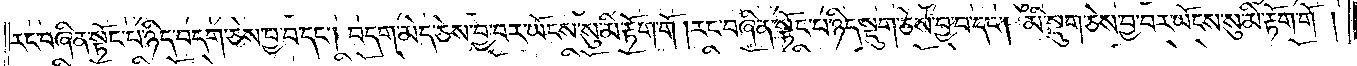རང་བཞིན་སྟོང་པ་ཉིད་བདག་ཅེས་བྱ་བ་དང༌། བདག་མེད་ཅེས་བྱ་བར་ཡོངས་སུ་མི་རྟོག་གོ །རང་བཞིན་སྟོང་པ་ཉིད་སྡུག་ཅེས་བྱ་བ་དང༌། མི་སྡུག་ཅེས་བྱ་བར་ཡོངས་སུ་མི་རྟོག་གོ །
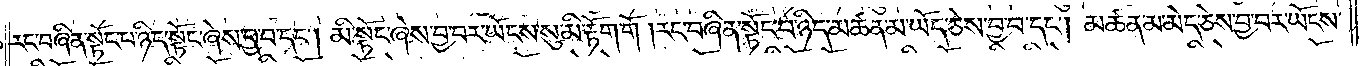རང་བཞིན་སྟོང་པ་ཉིད་སྟོང་ཞེས་བྱ་བ་དང༌། མི་སྟོང་ཞེས་བྱ་བར་ཡོངས་སུ་མི་རྟོག་གོ །རང་བཞིན་སྟོང་པ་ཉིད་མཚན་མ་ཡོད་ཅེས་བྱ་བ་དང༌། མཚན་མ་མེད་ཅེས་བྱ་བར་ཡོངས་
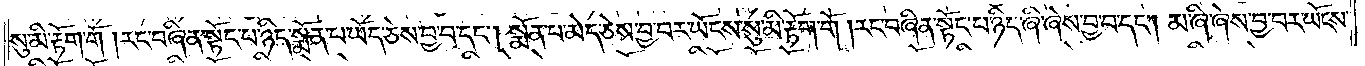སུ་མི་རྟོག་གོ །རང་བཞིན་སྟོང་པ་ཉིད་སྨོན་པ་ཡོད་ཅེས་བྱ་བ་དང༌། སྨོན་པ་མེད་ཅེས་བྱ་བར་ཡོངས་སུ་མི་རྟོག་གོ །རང་བཞིན་སྟོང་པ་ཉིད་ཞི་ཞེས་བྱ་བ་དང༌། མ་ཞི་ཞེས་བྱ་བར་ཡོངས་
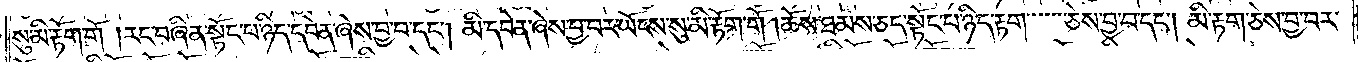སུ་མི་རྟོག་གོ །རང་བཞིན་སྟོང་པ་ཉིད་དབེན་ཞེས་བྱ་བ་དང༌། མི་དབེན་ཞེས་བྱ་བར་ཡོངས་སུ་མི་རྟོག་གོ །ཆོས་ཐམས་ཅད་སྟོང་པ་ཉིད་རྟག་ཅེས་བྱ་བ་དང༌། མི་རྟག་ཅེས་བྱ་བར་
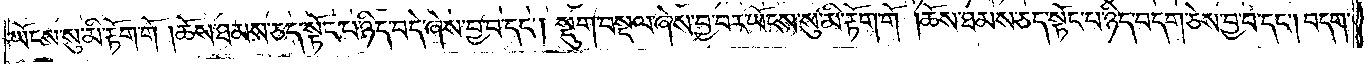ཡོངས་སུ་མི་རྟོག་གོ །ཆོས་ཐམས་ཅད་སྟོང་པ་ཉིད་བདེ་ཞེས་བྱ་བ་དང༌། སྡུག་བསྔལ་ཞེས་བྱ་བར་ཡོངས་སུ་མི་རྟོག་གོ །ཆོས་ཐམས་ཅད་སྟོང་པ་ཉིད་བདག་ཅེས་བྱ་བ་དང༌། བདག་
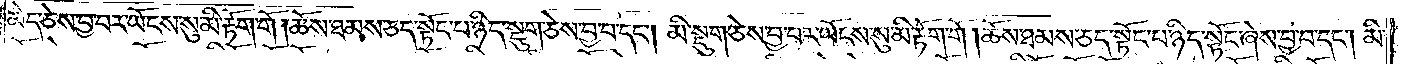མེད་ཅེས་བྱ་བར་ཡོངས་སུ་མི་རྟོག་གོ །ཆོས་ཐམས་ཅད་སྟོང་པ་ཉིད་སྡུག་ཅེས་བྱ་བ་དང༌། མི་སྡུག་ཅེས་བྱ་བར་ཡོངས་སུ་མི་རྟོག་གོ །ཆོས་ཐམས་ཅད་སྟོང་པ་ཉིད་སྟོང་ཞེས་བྱ་བ་དང༌། མི་
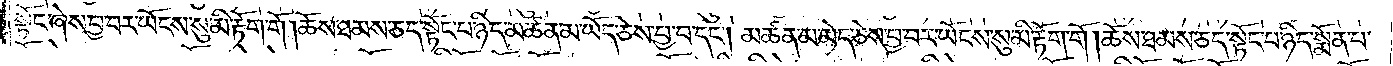སྟོང་ཞེས་བྱ་བར་ཡོངས་སུ་མི་རྟོག་གོ །ཆོས་ཐམས་ཅད་སྟོང་པ་ཉིད་མཚན་མ་ཡོད་ཅེས་བྱ་བ་དང༌། མཚན་མ་མེད་ཅེས་བྱ་བར་ཡོངས་སུ་མི་རྟོག་གོ །ཆོས་ཐམས་ཅད་སྟོང་པ་ཉིད་སྨོན་པ་
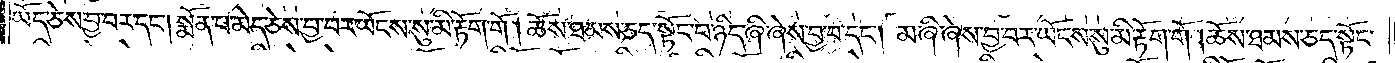ཡོད་ཅེས་བྱ་བ་དང༌། སྨོན་པ་མེད་ཅེས་བྱ་བར་ཡོངས་སུ་མི་རྟོག་གོ །ཆོས་ཐམས་ཅད་སྟོང་པ་ཉིད་ཞི་ཞེས་བྱ་བ་དང༌། མ་ཞི་ཞེས་བྱ་བར་ཡོངས་སུ་མི་རྟོག་གོ །ཆོས་ཐམས་ཅད་སྟོང་
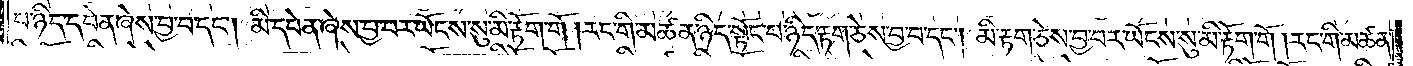པ་ཉིད་དབེན་ཞེས་བྱ་བ་དང༌། མི་དབེན་ཞེས་བྱ་བར་ཡོངས་སུ་མི་རྟོག་གོ །རང་གི་མཚན་ཉིད་སྟོང་པ་ཉིད་རྟག་ཅེས་བྱ་བ་དང༌། མི་རྟག་ཅེས་བྱ་བར་ཡོངས་སུ་མི་རྟོག་གོ །རང་གི་མཚན་
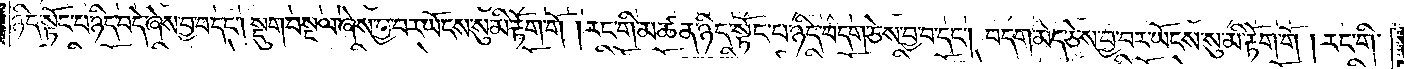ཉིད་སྟོང་པ་ཉིད་བདེ་ཞེས་བྱ་བ་དང༌། སྡུག་བསྔལ་ཞེས་བྱ་བར་ཡོངས་སུ་མི་རྟོག་གོ །རང་གི་མཚན་ཉིད་སྟོང་པ་ཉིད་བདག་ཅེས་བྱ་བ་དང༌། བདག་མེད་ཅེས་བྱ་བར་ཡོངས་སུ་མི་རྟོག་གོ །རང་གི་
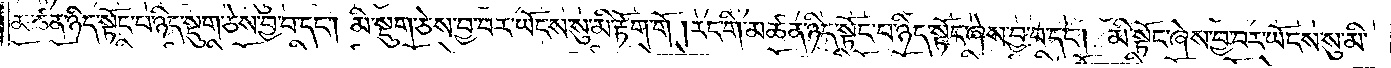མཚན་ཉིད་སྟོང་པ་ཉིད་སྡུག་ཅེས་བྱ་བ་དང༌། མི་སྡུག་ཅེས་བྱ་བར་ཡོངས་སུ་མི་རྟོག་གོ །རང་གི་མཚན་ཉིད་སྟོང་པ་ཉིད་སྟོང་ཞེས་བྱ་བ་དང༌། མི་སྟོང་ཞེས་བྱ་བར་ཡོངས་སུ་མི་
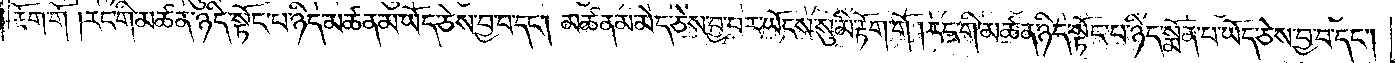རྟོག་གོ །རང་གི་མཚན་ཉིད་སྟོང་པ་ཉིད་མཚན་མ་ཡོད་ཅེས་བྱ་བ་དང༌། མཚན་མ་མེད་ཅེས་བྱ་བར་ཡོངས་སུ་མི་རྟོག་གོ །རང་གི་མཚན་ཉིད་སྟོང་པ་ཉིད་སྨོན་པ་ཡོད་ཅེས་བྱ་བ་དང༌།
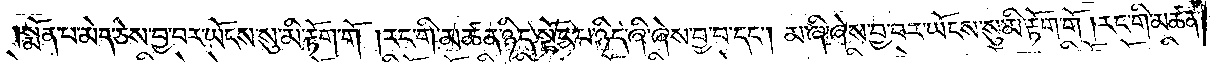སྨོན་པ་མེད་ཅེས་བྱ་བར་ཡོངས་སུ་མི་རྟོག་གོ །རང་གི་མཚན་ཉིད་སྟོང་པ་ཉིད་ཞི་ཞེས་བྱ་བ་དང༌། མ་ཞི་ཞེས་བྱ་བར་ཡོངས་སུ་མི་རྟོག་གོ །རང་གི་མཚན་
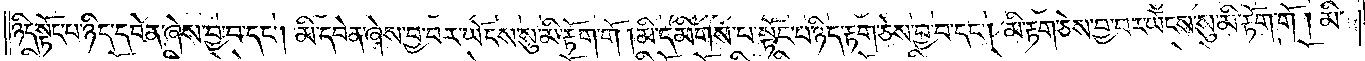ཉིད་སྟོང་པ་ཉིད་དབེན་ཞེས་བྱ་བ་དང༌། མི་དབེན་ཞེས་བྱ་བར་ཡོངས་སུ་མི་རྟོག་གོ །མི་དམིགས་པ་སྟོང་པ་ཉིད་རྟག་ཅེས་བྱ་བ་དང༌། མི་རྟག་ཅེས་བྱ་བར་ཡོངས་སུ་མི་རྟོག་གོ །མི་
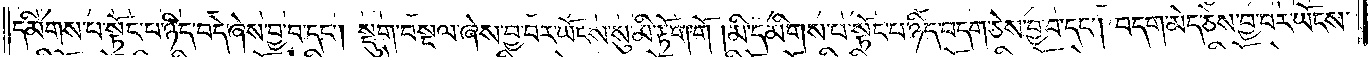དམིགས་པ་སྟོང་པ་ཉིད་བདེ་ཞེས་བྱ་བ་དང༌། སྡུག་བསྔལ་ཞེས་བྱ་བར་ཡོངས་སུ་མི་རྟོག་གོ །མི་དམིགས་པ་སྟོང་པ་ཉིད་བདག་ཅེས་བྱ་བ་དང༌། བདག་མེད་ཅེས་བྱ་བར་ཡོངས་སུ་
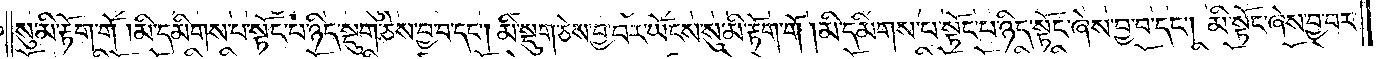སུ་མི་རྟོག་གོ །མི་དམིགས་པ་སྟོང་པ་ཉིད་སྡུག་ཅེས་བྱ་བ་དང༌། མི་སྡུག་ཅེས་བྱ་བར་ཡོངས་སུ་མི་རྟོག་གོ །མི་དམིགས་པ་སྟོང་པ་ཉིད་སྟོང་ཞེས་བྱ་བ་དང༌། མི་སྟོང་ཞེས་བྱ་བར་
